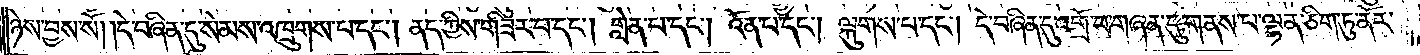ཉེས་བྱས་སོ། །དེ་བཞིན་དུ་སེམས་འཁྲུགས་པ་དང༌། ནད་ཀྱིས་གཟིར་བ་དང༌། གླེན་པ་དང༌། འོན་པ་དང༌། ལྐུགས་པ་དང༌། དེ་བཞིན་དུ་འགྲོ་བ་གཞན་དུ་གནས་པ་ལྷན་ཅིག་ཏུ་ནོར་
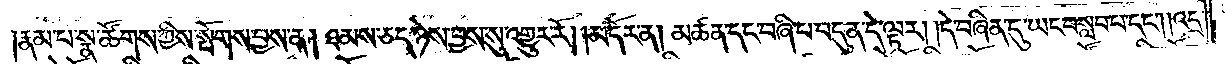།རྣམ་པ་སྣ་ཚོགས་ཀྱིས་སྤོགས་བྱས་ན། ཐམས་ཅད་ཉེས་བྱས་སུ་འགྱུར་རོ། །མདོར་ན། མཚན་དང་བཞི་པ་བདུན་དེ་ལྟར། །དེ་བཞིན་དུ་ཡང་བསླབ་པ་དང༌། །འདྲ་
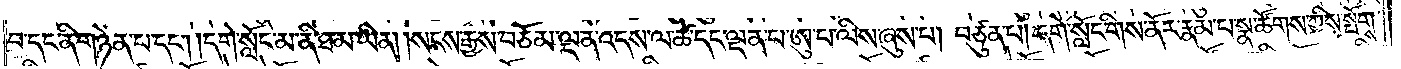བ་དང་ནི་གཉེན་པ་དང༌། །དགེ་སློང་མ་ནི་ཐ་མ་ཡིན། །སངས་རྒྱས་བཅོམ་ལྡན་འདས་ལ་ཚེ་དང་ལྡན་པ་ཨུ་པ་ལིས་ཞུས་པ། བཙུན་པ། དགེ་སློང་གིས་ནོར་རྣམ་པ་སྣ་ཚོགས་ཀྱིས་སྤོགས་
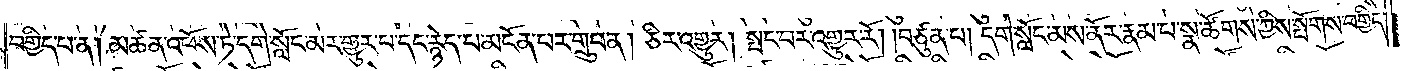བགྱིད་པ་ན། མཚན་འཕོས་ཏེ་དགེ་སློང་མར་གྱུར་པ་དང་རྙེད་པ་མངོན་པར་གྲུབ་ན། ཅིར་འགྱུར། སྤང་བར་འགྱུར་རོ། །བཙུན་པ། དགེ་སློང་མས་ནོར་རྣམ་པ་སྣ་ཚོགས་ཀྱིས་སྤོགས་བགྱིད་
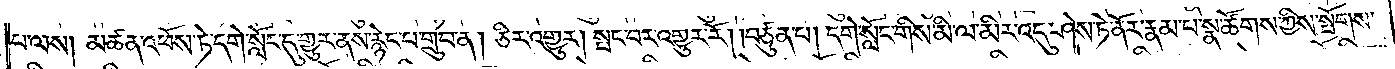པ་ལས། མཚན་འཕོས་ཏེ་དགེ་སློང་དུ་གྱུར་ནས་རྙེད་པ་གྲུབ་ན། ཅིར་འགྱུར། སྤང་བར་འགྱུར་རོ། །བཙུན་པ། དགེ་སློང་གིས་མི་ལ་མིར་འདུ་ཤེས་ཏེ་ནོར་རྣམ་པ་སྣ་ཚོགས་ཀྱིས་སྤོགས་
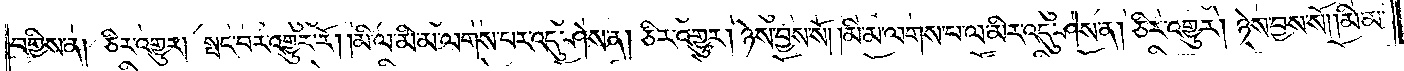བགྱིས་ན། ཅིར་འགྱུར། །སྤང་བར་འགྱུར་རོ། །མི་ལ་མི་མ་ལགས་པར་འདུ་ཤེས་ན། ཅིར་འགྱུར། ཉེས་བྱས་སོ། །མི་མ་ལགས་པ་ལ་མིར་འདུ་ཤེས་ན། ཅིར་འགྱུར། ཉེས་བྱས་སོ། །མི་མ་
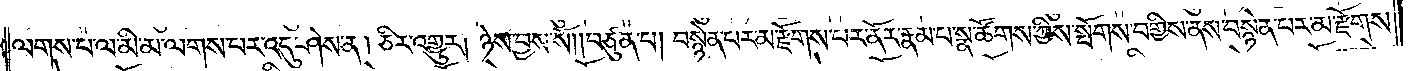ལགས་པ་ལ་མི་མ་ལགས་པར་འདུ་ཤེས་ན། ཅིར་འགྱུར། ཉེས་བྱས་སོ། །བཙུན་པ། བསྙེན་པར་མ་རྫོགས་པར་ནོར་རྣམ་པ་སྣ་ཚོགས་ཀྱིས་སྤོགས་བགྱིས་ནས་བསྙེན་པར་མ་རྫོགས་
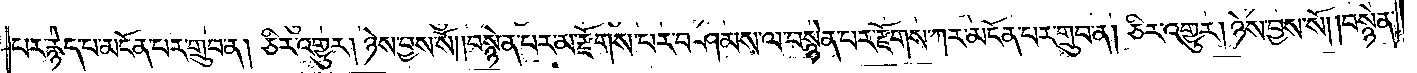པར་རྙེད་པ་མངོན་པར་གྲུབ་ན། ཅིར་འགྱུར། ཉེས་བྱས་སོ། །བསྙེན་པར་མ་རྫོགས་པར་བཤམས་ལ་བསྙེན་པར་རྫོགས་ཀར་མངོན་པར་གྲུབ་ན། ཅིར་འགྱུར། ཉེས་བྱས་སོ། །བསྙེན་
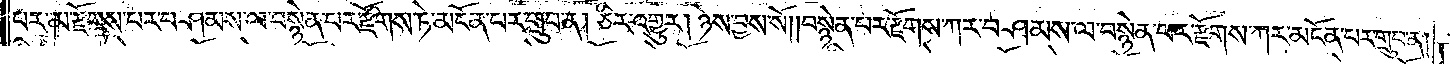པར་མ་རྫོགས་པར་བཤམས་ལ་བསྙེན་པར་རྫོགས་ཏེ་མངོན་པར་གྲུབ་ན། ཅིར་འགྱུར། ཉེས་བྱས་སོ། །བསྙེན་པར་རྫོགས་ཀར་བཤམས་ལ་བསྙེན་པར་རྫོགས་ཀར་མངོན་པར་གྲུབ་ན།
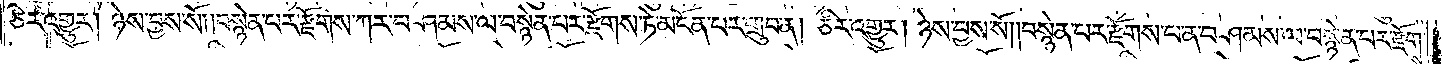ཅིར་འགྱུར། ཉེས་བྱས་སོ། །བསྙེན་པར་རྫོགས་ཀར་བཤམས་ལ་བསྙེན་པར་རྫོགས་ཏེ་མངོན་པར་གྲུབ་ན། ཅིར་འགྱུར། ཉེས་བྱས་སོ། །བསྙེན་པར་རྫོགས་པ་ན་བཤམས་ལ་བསྙེན་པར་རྫོགས་
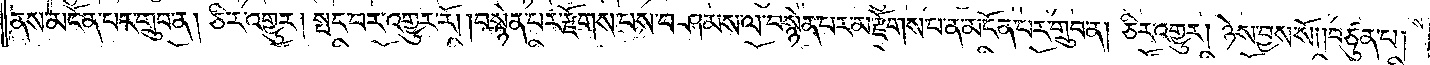ནས་མངོན་པར་གྲུབ་ན། ཅིར་འགྱུར། སྤང་བར་འགྱུར་རོ། །བསྙེན་པར་རྫོགས་པས་བཤམས་ལ་བསྙེན་པར་མ་རྫོགས་པ་ན་མངོན་པར་གྲུབ་ན། ཅིར་འགྱུར། ཉེས་བྱས་སོ། །བཙུན་པ།
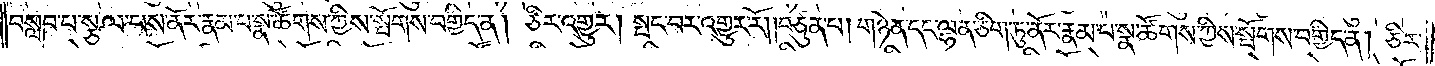བསླབ་པ་སྩལ་པས་ནོར་རྣམ་པ་སྣ་ཚོགས་ཀྱིས་སྤོགས་བགྱིད་ན། ཅིར་འགྱུར། སྤང་བར་འགྱུར་རོ། །བཙུན་པ། གཉེན་དང་ལྷན་ཅིག་ཏུ་ནོར་རྣམ་པ་སྣ་ཚོགས་ཀྱིས་སྤོགས་བགྱིད་ན། ཅིར་
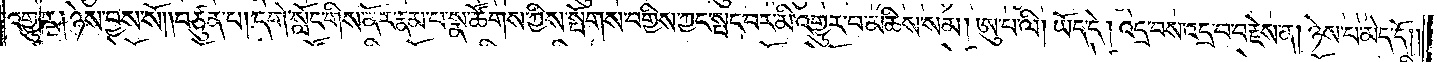འགྱུར། ཉེས་བྱས་སོ། །བཙུན་པ། དགེ་སློང་གིས་ནོར་རྣམ་པ་སྣ་ཚོགས་ཀྱིས་སྤོགས་བགྱིས་ཀྱང་སྤང་བར་མི་འགྱུར་བ་མཆིས་སམ། ཨུ་པ་ལི། ཡོད་དེ། འདྲ་བས་འདྲ་བ་བརྗེས་ན། ཉེས་པ་མེད་དོ།
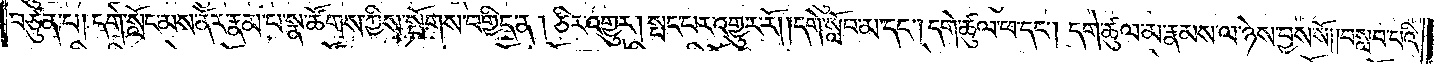བཙུན་པ། དགེ་སློང་མས་ནོར་རྣམ་པ་སྣ་ཚོགས་ཀྱིས་སྤོགས་བགྱིད་ན། ཅིར་འགྱུར། སྤང་བར་འགྱུར་རོ། །དགེ་སློབ་མ་དང༌། དགེ་ཚུལ་ཕ་དང༌། དགེ་ཚུལ་མ་རྣམས་ལ་ཉེས་བྱས་སོ། །བསླབ་པའི་
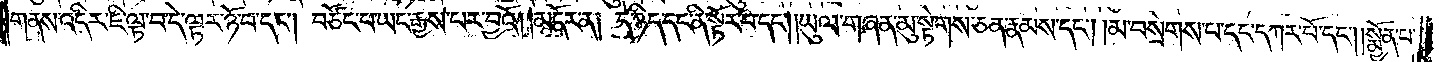གནས་འདིར་ཇི་ལྟ་བ་དེ་ལྟར་ཉོ་བ་དང༌། བཙོང་པ་ཡང་རྒྱས་པར་བྱའོ།    །མདོར་ན། དེ་ཉིད་དང་ནི་སྟོར་བ་དང༌། །ཡུལ་གཞན་མུ་སྟེགས་ཅན་རྣམས་དང༌། །མ་བསྲེགས་པ་དང་དཀར་པོ་དང༌། །སྨྱོན་པ་
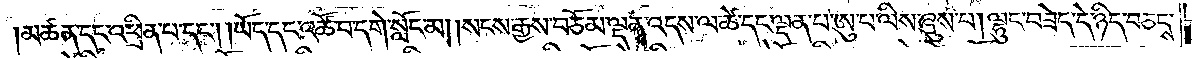།མཚན་དང་འཕྲིན་པ་དང༌། །ཡོད་དང་འཚོ་བ་དགེ་སློང་མ། །སངས་རྒྱས་བཅོམ་ལྡན་འདས་ལ་ཚེ་དང་ལྡན་པ་ཨུ་པ་ལིས་ཞུས་པ། ལྷུང་བཟེད་དེ་ཉིད་བཅངས་
